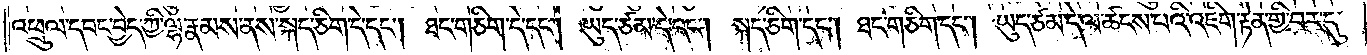འཕྲུལ་དབང་བྱེད་ཀྱི་ལྷ་རྣམས་ནས་སྐད་ཅིག་དེ་དང༌། ཐང་གཅིག་དེ་དང༌། ཡུད་ཙམ་དེ་དང༌། སྐད་ཅིག་དང༌། ཐང་གཅིག་དང༌། ཡུད་ཙམ་དེ་ལ་ཚངས་པའི་འཇིག་རྟེན་གྱི་བར་དུ་
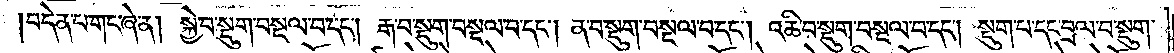བདེན་པ་གང་ཞེ་ན། སྐྱེ་བ་སྡུག་བསྔལ་བ་དང༌། རྒ་བ་སྡུག་བསྔལ་བ་དང༌། ན་བ་སྡུག་བསྔལ་བ་དང༌། འཆི་བ་སྡུག་བསྔལ་བ་དང༌། སྡུག་པ་དང་བྲལ་བ་སྡུག་
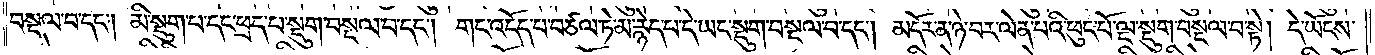བསྔལ་བ་དང༌། མི་སྡུག་པ་དང་ཕྲད་པ་སྡུག་བསྔལ་བ་དང༌། གང་འདོད་པ་བཙལ་ཏེ་མ་རྙེད་པ་དེ་ཡང་སྡུག་བསྔལ་བ་དང༌། མདོར་ན་ཉེ་བར་ལེན་པའི་ཕུང་པོ་ལྔ་སྡུག་བསྔལ་བ་སྟེ། དེ་ཡོངས་
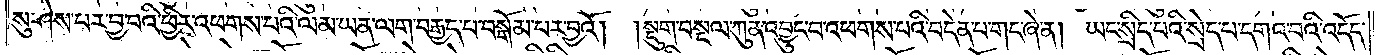སུ་ཤེས་པར་བྱ་བའི་ཕྱིར་འཕགས་པའི་ལམ་ཡན་ལག་བརྒྱད་པ་བསྒོམ་པར་བྱའོ། །སྡུག་བསྔལ་ཀུན་འབྱུང་བ་འཕགས་པའི་བདེན་པ་གང་ཞེ་ན། ཡང་སྲིད་པའི་སྲེད་པ་དགའ་བའི་འདོད་
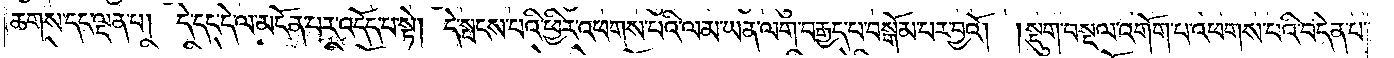ཆགས་དང་ལྡན་པ། དེ་དང་དེ་ལ་མངོན་པར་འདོད་པ་སྟེ། དེ་སྤངས་པའི་ཕྱིར་འཕགས་པའི་ལམ་ཡན་ལག་བརྒྱད་པ་བསྒོམ་པར་བྱའོ། །སྡུག་བསྔལ་འགོག་པ་འཕགས་པའི་བདེན་པ་
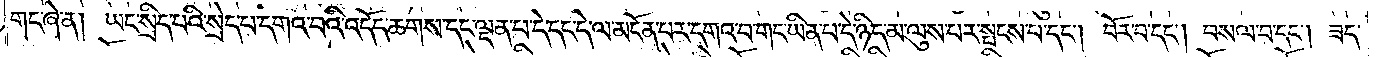གང་ཞེ་ན། ཡང་སྲིད་པའི་སྲེད་བ་དགའ་བའི་འདོད་ཆགས་དང་ལྡན་པ་དེ་དང་དེ་ལ་མངོན་པར་དགའ་བ་གང་ཡིན་པ་དེ་ཉིད་མ་ལུས་པར་སྤངས་པ་དང༌། བོར་བ་དང༌། བསལ་བ་དང༌། ཟད་
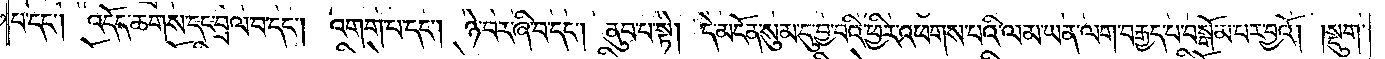པ་དང༌། འདོད་ཆགས་དང་བྲལ་བ་དང༌། འགག་པ་དང༌། ཉེ་བར་ཞི་བ་དང༌། ནུབ་པ་སྟེ། དེ་མངོན་སུམ་དུ་བྱ་བའི་ཕྱིར་འཕགས་པའི་ལམ་ཡན་ལག་བརྒྱད་པ་བསྒོམ་པར་བྱའོ། །སྡུག་
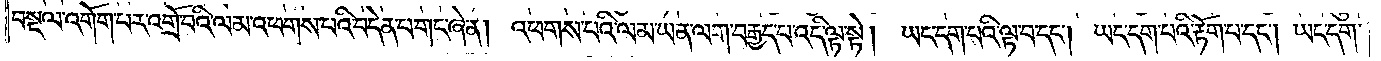བསྔལ་འགོག་པར་འགྲོ་བའི་ལམ་འཕགས་པའི་བདེན་པ་གང་ཞེ་ན། འཕགས་པའི་ལམ་ཡན་ལག་བརྒྱད་པ་འདི་ལྟ་སྟེ། ཡང་དག་པའི་ལྟ་བ་དང༌། ཡང་དག་པའི་རྟོག་པ་དང༌། ཡང་དག་
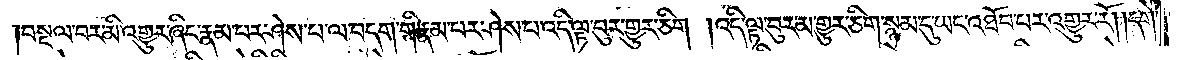།བསྔལ་བར་མི་འགྱུར་ཞིང་རྣམ་པར་ཤེས་པ་ལ་བདག་གི་རྣམ་པར་ཤེས་པ་འདི་ལྟ་བུར་གྱུར་ཅིག །འདི་ལྟ་བུར་མ་གྱུར་ཅིག་སྙམ་དུ་ཡང་འཐོབ་པར་འགྱུར་རོ། །དགེ་
